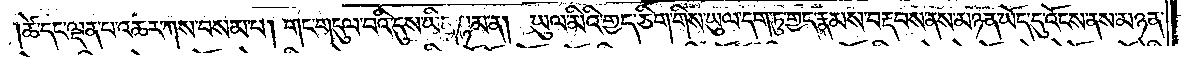།ཚེ་དང་ལྡན་པ་འཆར་ཀས་བསམ་པ། གང་གདུལ་བའི་དུས་ཡིན་སྙམ་ན། ཡུལ་མིའི་གྱད་ཅིག་གིས་ཡུལ་དག་ཏུ་གྱད་རྣམས་བརྡབས་ནས་མཉན་ཡོད་དུ་འོངས་ནས་མཉན་
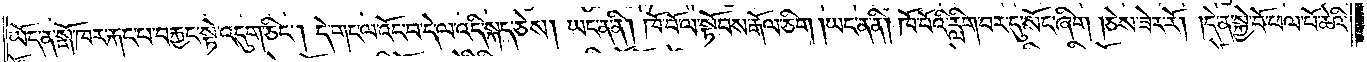ཡོད་ན་སྒོ་ཁར་རྐང་པ་བརྐྱང་སྟེ་འདུག་ཅིང༌། དེ་གང་ལ་འོང་བ་དེ་ལ་འདི་སྐད་ཅེས། ཡང་ན་ནི། ཁོ་བོ་ལ་སྟོབས་རྒོལ་ཅིག །ཡང་ན་ནི། ཁོ་བོའི་རླིག་བར་དུ་སོང་ཞིག །ཅེས་ཟེར་རོ། །དེ་ན་སྐྱེ་བོ་ཕལ་པོ་ཆེའི་
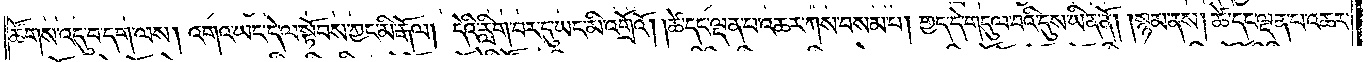ཚོགས་འདུ་བ་དག་ལས། འགའ་ཡང་དེ་ལ་སྟོབས་ཀྱང་མི་རྒོལ། དེའི་རླིག་པར་དུ་ཡང་མི་འགྲོའོ། །ཚེ་དང་ལྡན་པ་འཆར་ཀས་བསམ་པ། གྱད་དེ་གདུལ་བའི་དུས་ཡིན་ནོ། །སྙམ་ནས། ཚེ་དང་ལྡན་པ་འཆར་
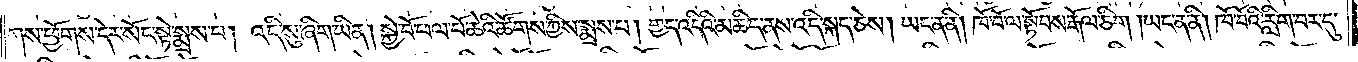ཀས་ཕྱོགས་དེར་སོང་སྟེ་སྨྲས་པ། འདི་སུ་ཞིག་ཡིན། སྐྱེ་བོ་ཕལ་པོ་ཆེའི་ཚོགས་ཀྱིས་སྨྲས་པ། གྱད་འདིའི་མཆིད་ནས་འདི་སྐད་ཅེས། ཡང་ན་ནི། ཁོ་བོ་ལ་སྟོབས་རྒོལ་ཅིག །ཡང་ན་ནི། ཁོ་བོའི་རླིག་བར་དུ་
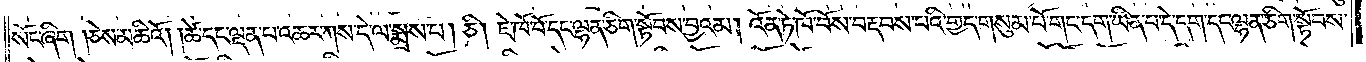སོང་ཞིག །ཅེས་མཆིའོ། །ཚེ་དང་ལྡན་པ་འཆར་ཀས་དེ་ལ་སྨྲས་པ། ཅི། ཇེ་ཁོ་བོ་དང་ལྷན་ཅིག་སྟོབས་བྱའམ། འོན་ཏེ་ཁོ་བོས་བརྡབས་པའི་གྱད་གསུམ་པོ་གང་དག་ཡིན་པ་དེ་དག་དང་ལྷན་ཅིག་སྟོབས་
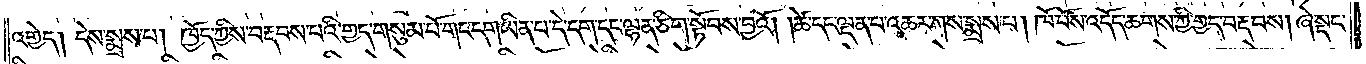འགྱེད། དེས་སྨྲས་པ། ཁྱོད་ཀྱིས་བརྡབས་པའི་གྱད་གསུམ་པོ་གང་དག་ཡིན་པ་དེ་དག་དང་ལྷན་ཅིག་སྟོབས་བྱའོ། །ཚེ་དང་ལྡན་པ་འཆར་ཀས་སྨྲས་པ། ཁོ་བོས་འདོད་ཆགས་ཀྱི་གྱད་བརྡབས། ཞེ་སྡང་
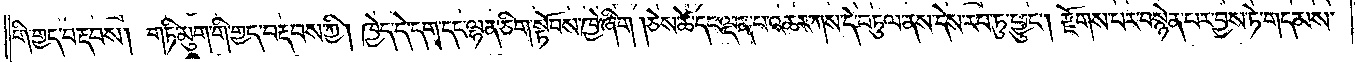གི་གྱད་བརྡབས། གཏི་མུག་གི་གྱད་བརྡབས་ཀྱི། ཁྱེད་དེ་དག་དང་ལྷན་ཅིག་སྟོབས་ཁྱེ་ཞིག །ཅེས་ཚེ་དང་ལྡན་པ་འཆར་ཀས་དེ་བཏུལ་ནས་དེས་རབ་ཏུ་ཕྱུང༌། རྫོགས་པར་བསྙེན་པར་བྱས་ཏེ་གདམས་
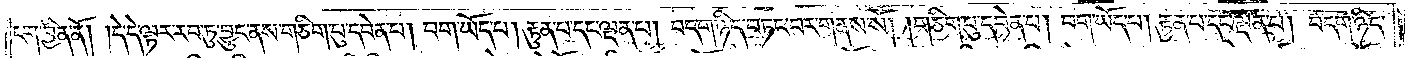ངག་བྱིན་ནོ། །དེ་དེ་ལྟར་རབ་ཏུ་བྱུང་ནས་གཅིག་པུ་དབེན་པ། བག་ཡོད་པ། རྟུན་པ་དང་ལྡན་པ། བདག་ཉིད་བཏང་བར་གནས་སོ། །གཅིག་པུ་དབེན་པ། བག་ཡོད་པ། རྟུན་པ་དང་ལྡན་པ། བདག་ཉིད་
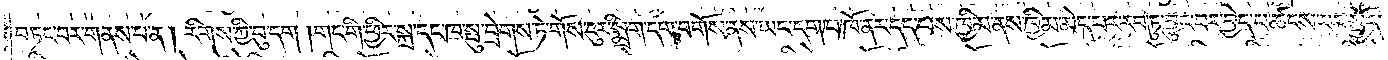བཏང་བར་གནས་པ་ན། རིགས་ཀྱི་བུ་དག །གང་གི་ཕྱིར་སྐྲ་དང་ཁ་སྤུ་བྲེགས་ཏེ་གོས་ངུར་སྨྲིག་དག་བགོས་ནས་ཡང་དག་པ་ཁོ་ནར་དད་པས་ཁྱིམ་ནས་ཁྱིམ་མེད་པར་རབ་ཏུ་བྱུང་བར་བྱེད་པ་ཚངས་པར་སྤྱོད་
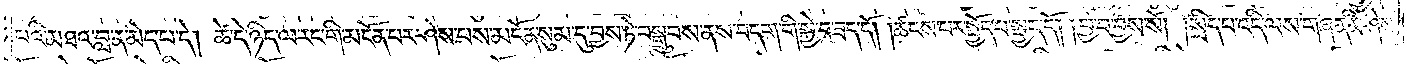པའི་མཐའ་བླ་ན་མེད་པ་དེ། ཚེ་དེ་ཉིད་ལ་རང་གི་མངོན་པར་ཤེས་པས་མངོན་སུམ་དུ་བྱས་ཏེ་བསྒྲུབས་ནས་བདག་གི་སྐྱེ་བ་ཟད་དོ། །ཚངས་པར་སྤྱོད་པ་སྤྱད་དོ། །བྱ་བ་བྱས་སོ། །སྲིད་པ་འདི་ལས་གཞན་མི་ཤེས་
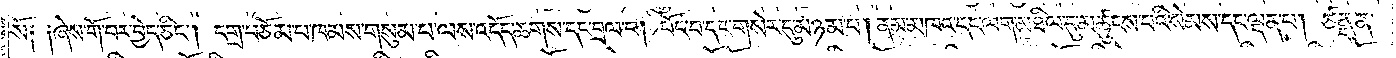སོ༑ ༑ཞེས་གོ་བར་བྱེད་ཅིང༌། དགྲ་བཅོམ་པ་ཁམས་གསུམ་པ་ལས་འདོད་ཆགས་དང་བྲལ་བ། བོང་བ་དང་གསེར་དུ་མཉམ་པ། ནམ་མཁའ་དང་ལག་མཐིལ་དུ་མཚུངས་པའི་སེམས་དང་ལྡན་པ། ཙནྡན་
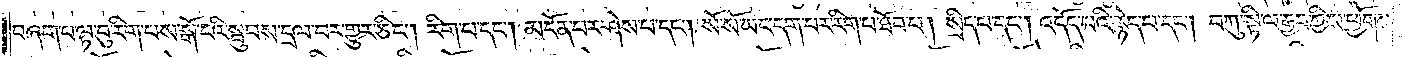བཞག་པ་ལྟ་བུ་རིག་པས་སྒོ་ངའི་སྦུབས་དྲལ་བར་གྱུར་ཅིང༌། རིག་པ་དང༌། མངོན་པར་ཤེས་པ་དང༌། སོ་སོ་ཡང་དག་པར་རིག་པ་ཐོབ་པ། སྲིད་པ་དང༌། འདོད་པའི་རྙེད་པ་དང༌། བཀུ་སྟི་ལ་རྒྱབ་ཀྱིས་ཕྱོགས་
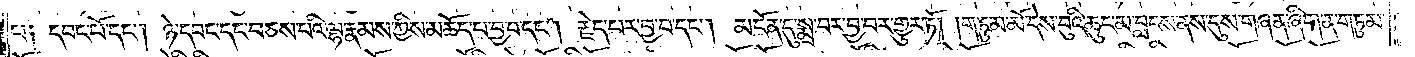པ༑ དབང་པོ་དང༌། ཉེ་དབང་དང་བཅས་པའི་ལྷ་རྣམས་ཀྱིས་མཆོད་པ་བྱ་བ་དང༌། རྗེད་པར་བྱ་བ་དང༌། མངོན་དུ་སྨྲ་བར་བྱ་བར་གྱུར་ཏོ། །གཏུམ་མོ་དེས་བུའི་ཆུང་མ་བླངས་ནས་དུས་གཞན་ཞིག་ན་གཏུམ་
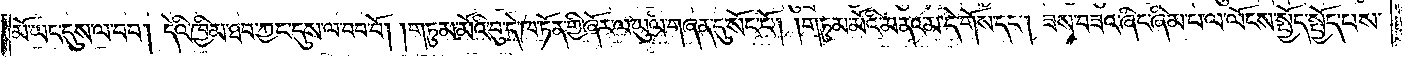མོ་ཡང་དུས་ལ་བབ། དེའི་ཁྱིམ་ཐབ་ཀྱང་དུས་ལ་བབ་བོ། །གཏུམ་མོའི་བུ་དེ་ཁ་ཏོན་གྱི་ཞོར་ལ་ཡུལ་གཞན་དུ་སོང་ངོ༌། །གཏུམ་མོའི་མནའ་མ་དེ་གོས་དང༌། ཟས་བཟའ་ཞིང་ཞིམ་པ་ལ་ལོངས་སྤྱོད་སྤྱོད་པ་
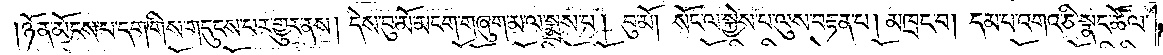ཉོན་མོངས་པ་དག་གིས་གདུངས་པར་གྱུར་ནས། དེས་བུ་མོ་མངག་གཞུག་མ་ལ་སྨྲས་པ། བུ་མོ། སོང་ལ་སྐྱེས་པ་ལུས་བརྟན་པ། མཁྲང་བ། དམ་པ་འགའ་ཅི་སྣང་ཚོལ་
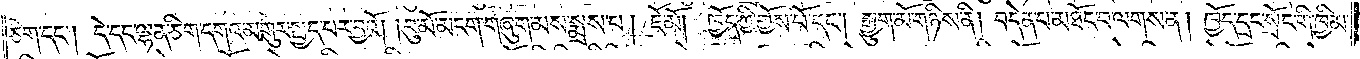ཅིག་དང༌། དེ་དང་ལྷན་ཅིག་དགའ་མགུར་སྤྱད་པར་བྱའོ། །བུ་མོ་མངག་གཞུག་མས་སྨྲས་པ། ཇོ་མོ། ཁྱོད་ཀྱི་གྱོས་པོ་དང༌། སྒྱུག་མོ་གཉིས་ནི། བདེན་པ་མཐོང་བ་ལགས་ན། ཁྱོད་དྲང་སྲོང་གི་ཁྱིམ་
